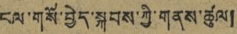ངལ་གསོ་བྱེད་སྐབས་ཀྱི་གནས་ཚུལ།
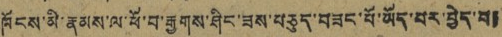ཁོངས་མི་རྣམས་ལ་ཕོ་བ་རྒྱགས་ཤིང་ཟས་བཅུད་བཟང་པོ་ཡོད་པར་བྱེད་པ།
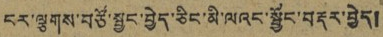ངར་ལྕགས་གཙོ་སྦྱང་བྱེད་ཅིང་མི་ལའང་སྦྱོང་བརྡར་བྱེད།
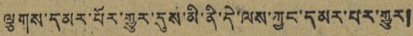ལྕགས་དམར་པོར་གྱུར་དུས་མི་ནི་དེ་ལས་ཀྱང་དམར་པར་གྱུར།
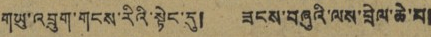གཡུ་འབྲུག་གངས་རིའི་སྟེང་དུ། ཟངས་བཞུའི་ལས་བྲེལ་ཆེ་བ།
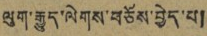ལུག་རྒྱུད་ལེགས་བཅོས་བྱེད་པ།
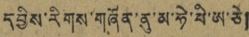དབྱིས་རིགས་གཞོན་ནུ་མ་ཧེ་པི་ཨ་ཅེ།
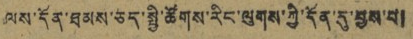ལས་དོན་ཐམས་ཅད་སྤྱི་ཚོགས་རིང་ལུགས་ཀྱི་དོན་དུ་བྱས་པ།
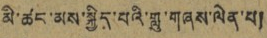མི་ཚང་མས་སྐྱིད་པའི་གླུ་གཞས་ལེན་པ།
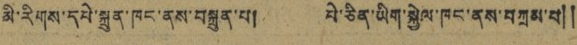མི་རིགས་དཔེ་སྐྲུན་ཁང་ནས་བསྐྲུན་པ། པེ་ཅིན་ཡིག་སྐྱེལ་ཁང་ནས་བཀྲམ་པ༎
